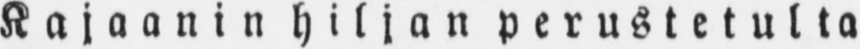Kajaanin hiljan perustetulta
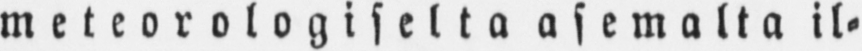meteorologiselta asemalta il-
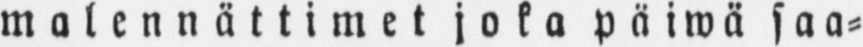malennättimet joka päiwä saa-
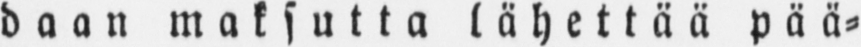daan maksutta lähettää pää-
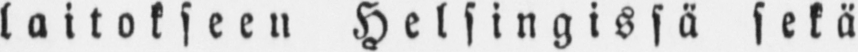laitokseen Helsingissä sekä
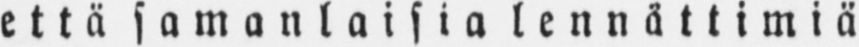että samanlaisia lennättimiä
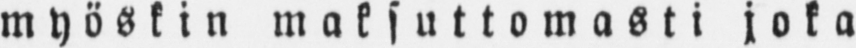myöskin maksuttomasti joka
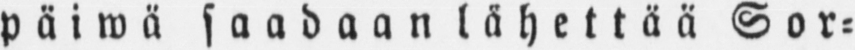päiwä saadaan lähettää Sor-
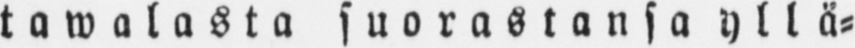tawalasta suorastansa yllä-
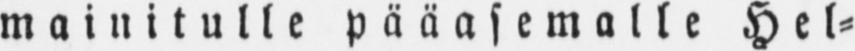mainitulle pääasemalle Hel-
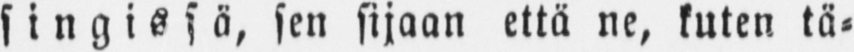singissä, sen sijaan että ne, kuten tä-
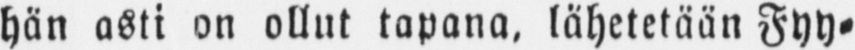hän asti on ollut tapana, lähetetään Fyy-
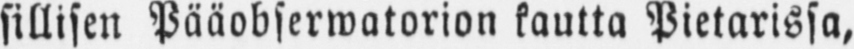sillisen Pääobserwatorion kautta Pietarissa,
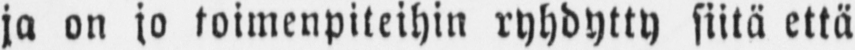ja on jo toimenpiteihin ryhdytty siitä että
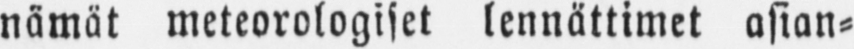nämät meteorologiset lennättimet asian-
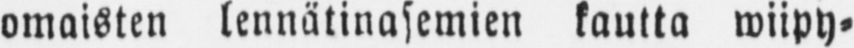omaisten lennätinasemien kautta wiipy-
